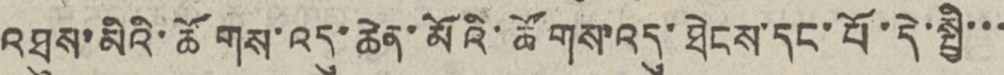འཐུས་མིའི་ཚོགས་འདུ་ཆེན་མོའི་ཚོགས་འདུ་ཐེངས་དང་པོ་དེ་སྤྱི་་་
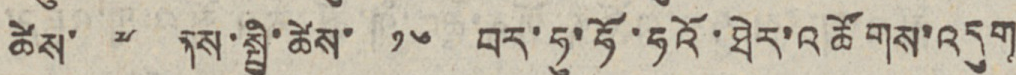ཚེས་ ༧ ནས་སྤྱི་ཚེས་ ༡༦ བར་ཧུ་ཧོ་ཧའོ་ཐེར་འཚོགས་འདུག
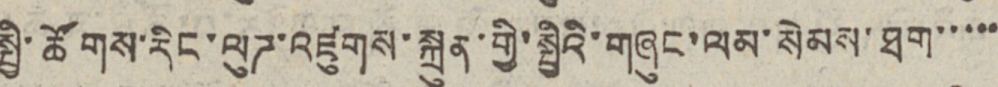སྤྱི་ཚོགས་རིང་ལུཊ་འཛུགས་སྐྲུན་གྱི་སྤྱིའི་གཞུང་ལམ་སེམས་ཐག་་་་་
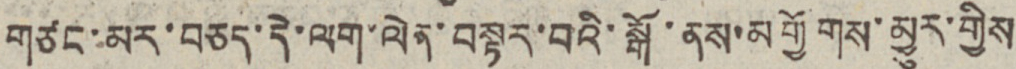གཙང་མར་བཙན་དེ་ལག་ལེན་བསྟར་བའི་སྒོ་ནས་མགྱོགས་མྱུར་གྱིས
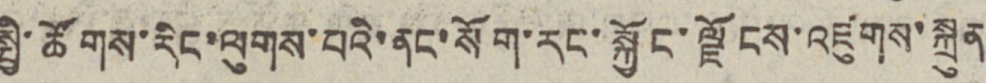སྤྱི་ཚོགས་རིང་ལུགས་པའི་ནང་སོག་རང་སྐྱོང་ལྗོངས་འཛུགས་སྐྲུན་
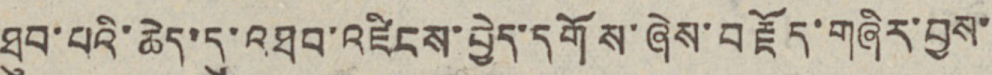ཐུབ་པའི་ཆེད་དུ་འཐབ་འཛིངས་བྱེད་དགོས་ཞེས་བརྗོད་གཞིར་བྱས་་
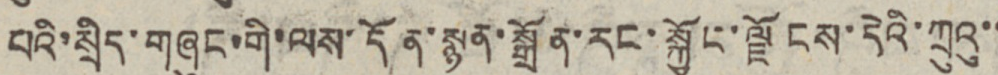པའི་སྲིད་གཞུང་གི་ལས་དོན་སྙན་སྒྲོན་རང་སྐྱོང་ལྗོངས་དེའི་ཀྲུའུ་་
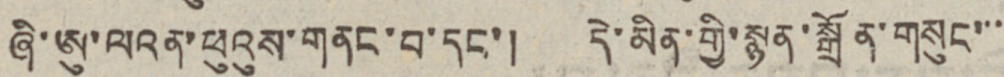ཞི་ཨུ་ལའན་ཕུའུས་གནང་བ་དང་། དེ་མིན་གྱི་སྙན་སྒྲོན་གསུང་་་་
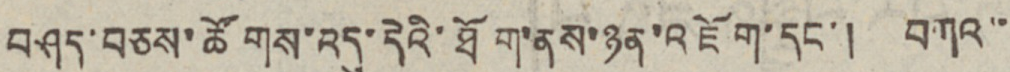བཤད་བཅས་ཚོགས་འདུ་དེའི་ཐོག་ནས་ཉན་འཇོག་དང་། བཀའ་་
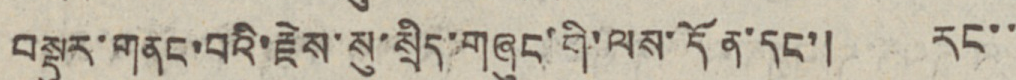བསྡུར་གནང་བའི་རྗེས་སུ་སྲིད་གཞུང་གི་ལས་དོན་དང་། རང་་
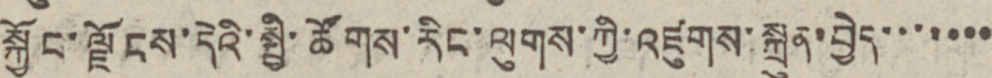སྐྱོང་ལྗོངས་དེའི་སྤྱི་ཚོགས་རིང་ལུགས་ཀྱི་འཛུགས་སྐྲུན་བྱེད་་་་་་་
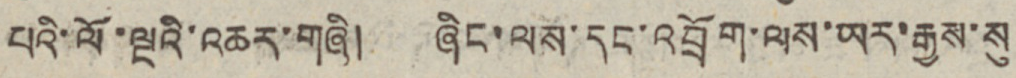པའི་ལོ་ལྔའི་འཆར་གཞི། ཞིང་ལས་དང་འབྲོག་ལས་ཡར་རྒྱས་སུ
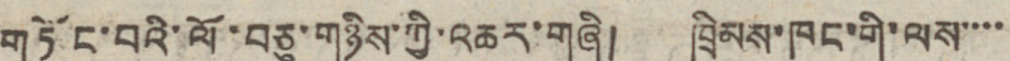གཏོང་བའི་ལོ་བཅུ་གཉིས་ཀྱི་འཆར་གཞི། ཁྲིམས་ཁང་གི་ལས་་་་
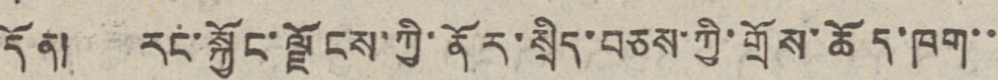དོན། རང་སྐྱོང་ལྗོངས་ཀྱི་ནོར་སྲིད་བཅས་ཀྱི་གྲོས་ཆོད་ཁག་་
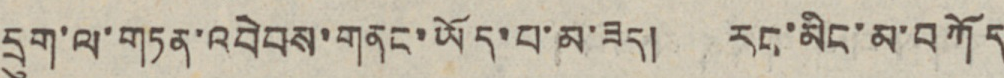དྲུག་ལ་གཏན་འབེབས་གནང་ཡོད་པ་མ་ཟད། རང་མིང་མ་བཀོད
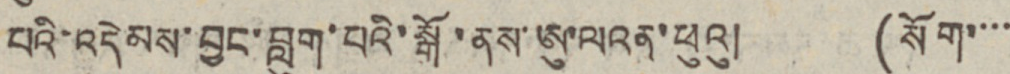པའི་འདེམས་བྱང་བླུག་པའི་སྒོ་ནས་ཨུ་ལའན་ཕུའུ། (སོག་་་་
